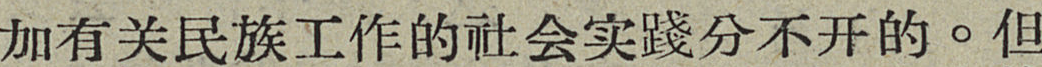加有关民族工作的社会实踐分不开的。但
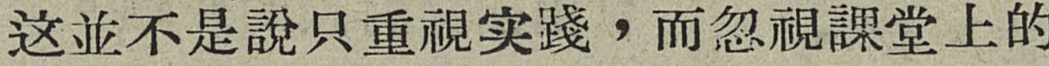这並不是說只重視实踐，而忽視課堂上的
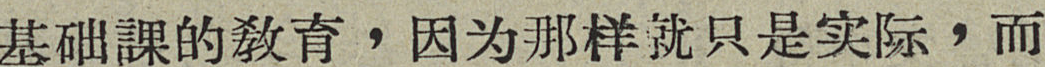基础課的敎育，因为那样就只是实际，而
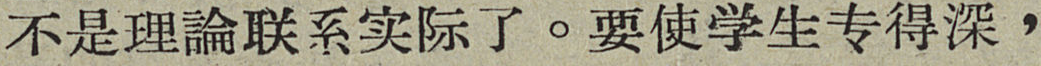不是理論联系实际了。要使学生专得深，
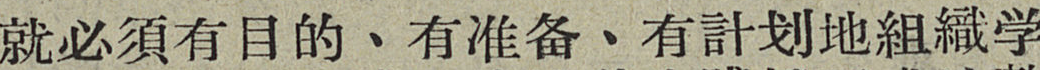就必須有目的、有准备、有計划地組織学
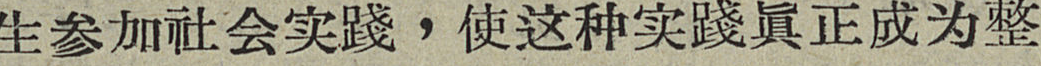省参加社会实踐，使这种实踐眞正成为整
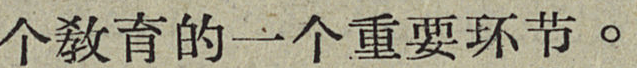个敎育的一个重要环节。
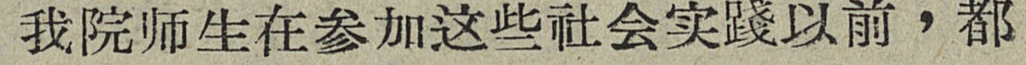我院师生在参加这些社会实踐以前，都
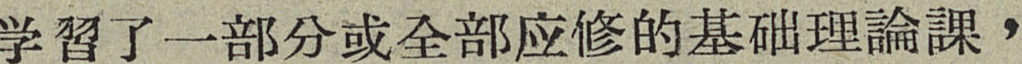学習了一部分或全部应修的基础理論課，
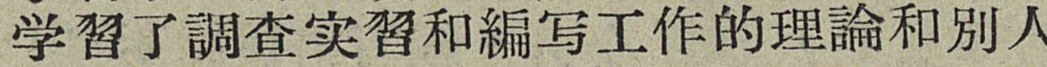学習了調查实習和編写工作的理論和别人
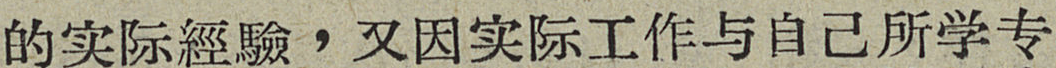的实际經驗，又因实际工作与自己所学专
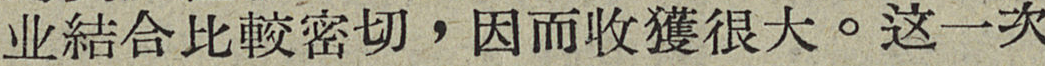业結合比較密切，因而收穫很大。这一次
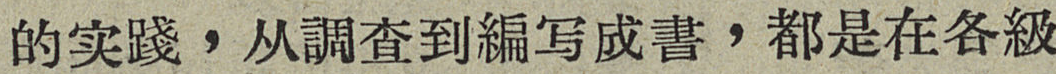的实踐，从調查到編写成書，都是在各級
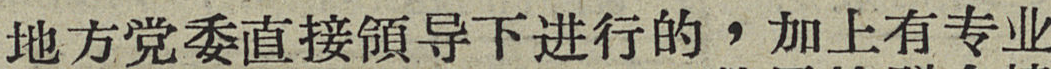地方党委直接領导下进行的，加上有专业
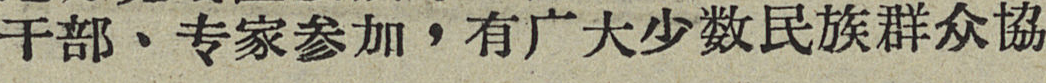干部、专家参加，有广大少数民族群众協
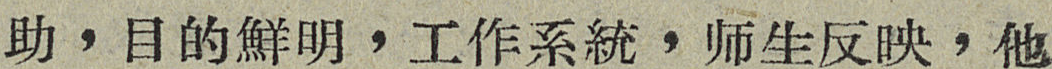助，目的鮮明，工作系統，师生反映，他
